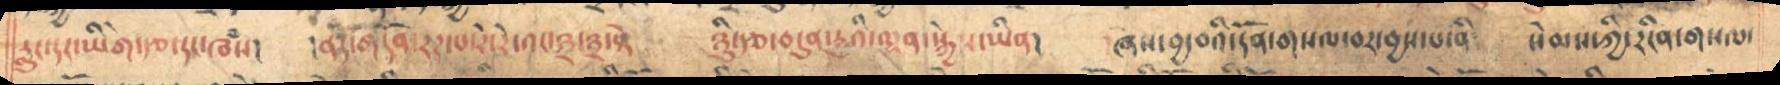རླུང་དང་ཡིགེ་རྩ་དང་ཁྃས། །ནདད་གདོན་རར་པ་རེ་རེ་྄འང་༣་༣སྟེ ཉིུ་རྩ་བདུན་རྱུའི་ལྷན་སྐྱེས་ཡིན། ཞེས་བྱ་བའི་དོན་གསལ་དར་བྱས་པ་ཡིན སེམས་ཀྱི་རངིན་གསལ་་
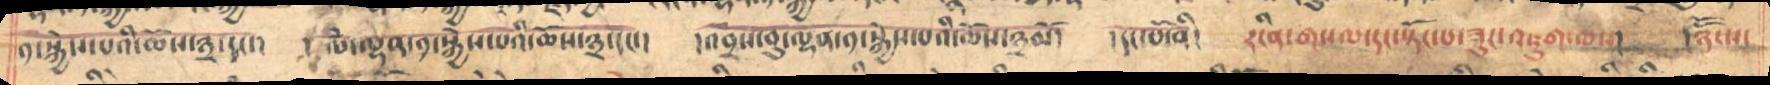ན་སྐྱེས་པའི་པའི་ཆོས་༣དང།། །ལྃ་ལྷན་ན་སྐྱེས་པའི་ཆོས་༣་དང།  །འབྲས་བུ་ལྷན་༡་སྐྱེས་པའི་ཆོས་༣མོ། །དང་པོ་ནི།  རངིན་གསལ་དང་སྟོང་པ་ཟུང་འཇུག་ཆས།   །ཉོོངས་
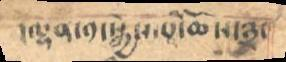།ལྷན་༡་སྐྱེས་པའི་ཆོས་༣་
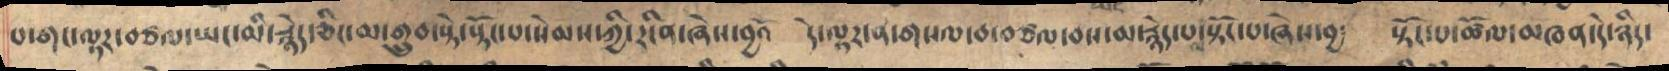པ་གང་ལྟར་བཙལ་ཡང་མི་བརྙེད་ཅིང་མ་གྲུབ་སྟེ་སྟོང་པ་སེམས་ཀྱི་རངིན་ཞེས་བྱའོ  དེ་ལྟར་ན་གསལ་བ་བཙལ་བས་མ་རྙེད་་སྟོང་པ་ཞེས་བྱ་  སྟོང་པ་ཚོལ་མཁན་དེ་ཉིད་
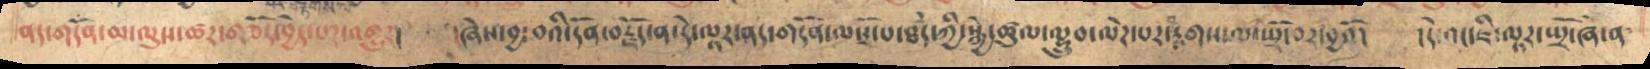ནད་གདོན་མ་ལུས་ཚར་གཅོད་བྱེད་པར་འགྱུར།   ཞེས་བྱ་བའི་དོན་བརྗོད་ན་དེ་ལྟར་ནད་གདོན་ལསོཌ་པ་ཐཾད་ཀྱི་སྐྱེ་ཚུལ་ལྷུབ་ལེཌ་པར་བརྟགས་ལ་ཡྲོ་བར་བྱའོ།   །དེ་འང་ཇི་ལྟར་ཡྲོ་ཞེ་ན་
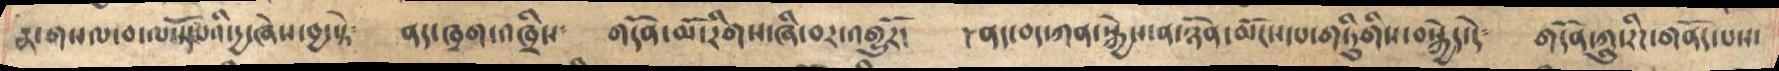སྣ་གསལ་བ་ལ་སྟོང་པའི་དྱ་ཞེས་བྱ་སྟེ༴   ནད་ཁྲག་འཁྲིས༴  གདོད་མོ་རིགས་ཞི་བར་འགྱུརོ།  །ནད་བད་ཀན་སྐྱེས་ན་ཉོན་མོངས་པ་གཏིུགིས་བསྐྱེད་དེ༴  གདོན་ཀླུ་རིཌ་གནོད་པས་
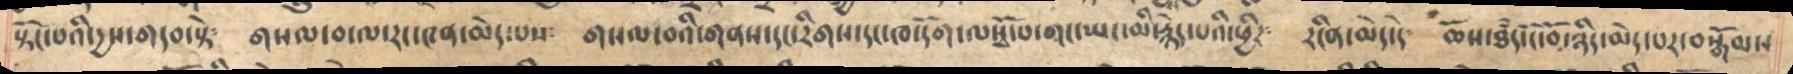སྟོང་པའི་དྱས་གདབ་སྟེ༴  གསལ་བ་ལ་རང་༤ན་མེད་པས༴  གསལ་བའི་གནས་དང་རིགས་དང་ཁ་དོག་ལ་སྭོ་པ་གང་ཡང་མི་རྙེད་པའི་ཕྱིར༴  རངིན་མེད་དེ༴  ཆོས་ཐྃད་ངོ་བོ་ཉིད་མེད་པར་བསྒོམས
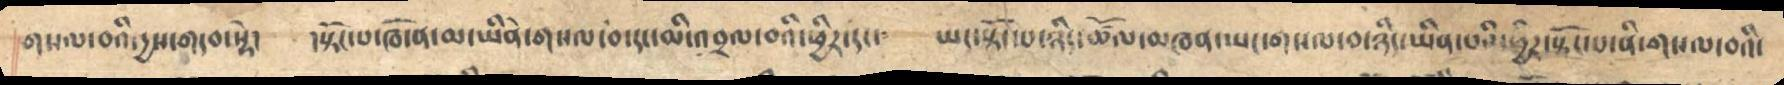གསལ་བའི་དྱས་གདབ་སྟེ།  །སྟོང་པ་ཁོ་ན་མ་ཡིནེ་གསལ་བ་དང་མིའབྲལ་བའི་ཕྱིར་དང་  ཡང་སྟོང་པ་ཉིད་ཚོལ་མཁན་ཡང་གསལ་བ་ཉིད་ཡིན་པའི་ཕྱིར་སྟོང་པ་ནི་གསལ་བའི་
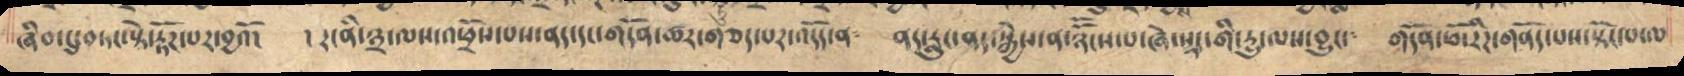ཞིབ་དུ་བཏང་སྟེ་རྡོཌ་པར་བྱའོ།  ། རང་ནི་༣་ལས་འཕྲོས་པས་ནད་དང་གདོན་ཚར་གཅད་པར་འདོད་ན༴  ནད་རླུང་ནད་སྐྱེས་ན་ཉོོངས་་་ཞེ་སྡང་གི་རྱུ་ལས་བྱུང་ གདོན་ཕོ་རིཌ་གནོད་པས་སྟོང་པ་ཆ
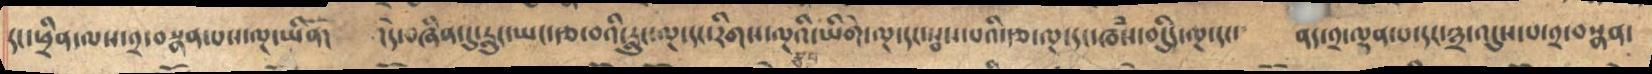དང་ཕྲིན་ལས་༢་བསྣན་པས་ལྔ་ཡིན།  །དེ་བཞིནདུ་རླུང་ཡང་རྩ་བའི་རླུང་ལྔ་དང་རིགས་ལྔའི་རྩ་བ་ཡིགེ་ལྔ་དང་སྦས་པའི་རྩ་ལྔ་དང་ཁཾས་བདུད་ལྔ་དང་  ནད་༢་ལྡན་པ་དང་༣་འདུས་པ་༢་བསྣན་
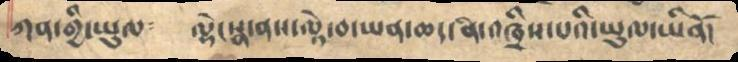ཀན་གྱི་ཡུལ ལྷེང་སྣ་ནས་ལྟེ་བ་ཡན་ཆད་ནི་འཁྲིས་པའི་ཡུལ་ཡིནོ།
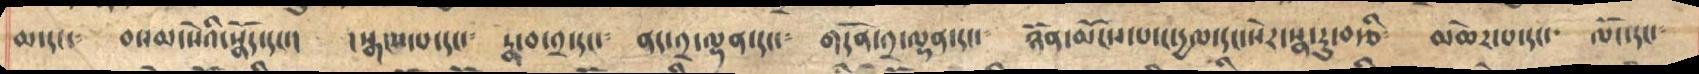ཆ་དང་༴ བསམ་སེའི་སྣོད་དང་། །སྒངས་པ་དང་༴ རྣ་བ་༢་དང་༴ ནད་༢་ལྡན་དང་༴ གདོན་༢་ལྡན་དང་༴ ཉོན་མོངས་པ་དང་དྱལ་དང་སེར་སྣ་རུ་བརྩི༴ མཆེར་པ་དང་ ལོང་དང་
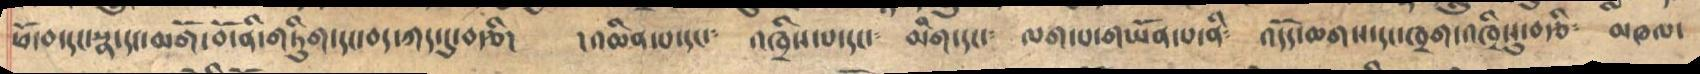ཕོ་བ་དང་སྣ་དང་མགོ་བོ་ནི་གཏིུག་དང་བད་ཀད་དུ་བརྩི། །འཆིན་པ་དང་༴ འཁྲིས་པ་དང་༴ མིག་དང་༴ ལག་པ་གཡོན་པ་ནི༴ འདོད་ཆགས་དང་ཁྲག་འཁྲིསུ་བརྩི༴ མཁལ་
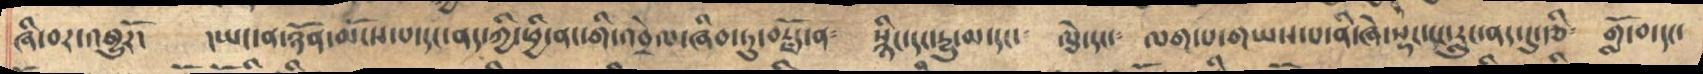ཞི་བར་འགྱུརོ། །ཡང་ན་ཉོན་མོངས་པ་དང་ནད་ཀྱི་ཕྱི་ནང་གི་འབྲེལ་ཞིབ་ཏུ་བརྗོད་ན༴ སྙིང་དང་རྱུ་མ་དང་༴ ལྕེ་དང་༴ ལག་པ་གཡས་པ་ནི་ཞེ་སྡང་ངང་རླུང་ནད་དུ་རྩི༴ གློ་བ་དང་
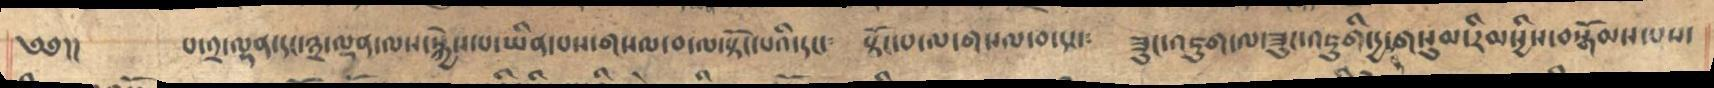༄༅།།  པ་༢་ལྷན་དང་༣་ལྡན་ལས་སྐྱེས་པ་ཡིན་པས་གསལ་བ་ལ་སྟོང་པའི་དང་    སྟོང་པ་ལ་གསལ་བ་དང་  ཟུང་འཇུག་ལ་ཟུང་འཇུགི་དྱ་གསུམ་རིམསྱིས་བསྒོམས་པས་
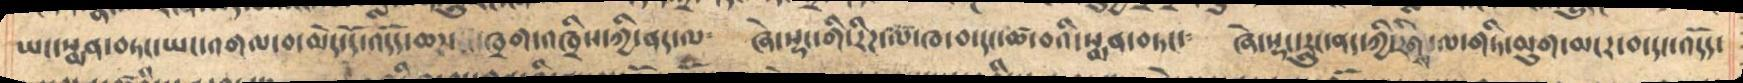ཡང་སྨན་བཏང་ཡང་འགལ་བ་མེད་དོ་འདོད་ཆཌ་  ཁྲག་འཁྲིས་ཀྱི་ནད་ལ་    ཞེ་སྡང་གི་རིཌ་ལ་ཁ་བ་དང་ཚ་བའི་སྨན་བཏང་  ཞེ་སྡང་རླུང་ནད་ཀྱི་རིགས་ལ་གཏི་མུག་མངར་བ་དང་འདོད་
